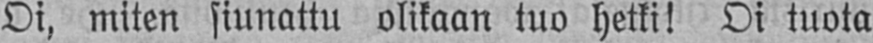Oi, miten siunattu olikaan tuo hetki! Oi tuota
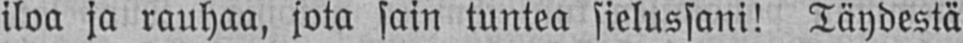iloa ja rauhaa, jota sain tuntea sielussani! Täydestä
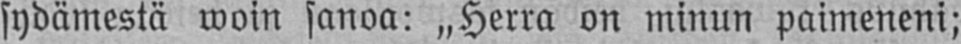sydämestä woin sanoa: „Herra on minun paimeneni;
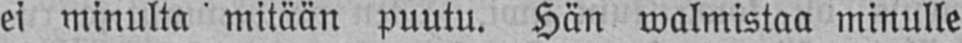ei minulta mitään puutu. Hän walmistaa minulle
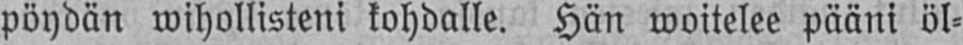pöydän wihollisteni kohdalle. Hän woitelee pääni öl-
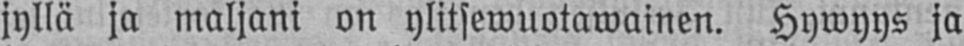jyllä ja maljani on ylitsewuotawainen. Hywyys ja
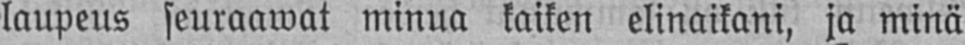laupeus seuraawat minua kaiken elinaikani, ja minä
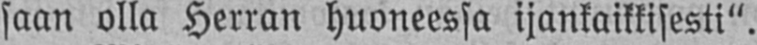saan olla Herran huoneessa ijankaikkisesti".
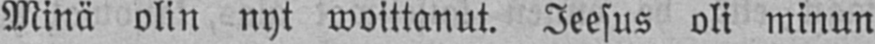Minä olin nyt woittanut. Jeesus oli minun
